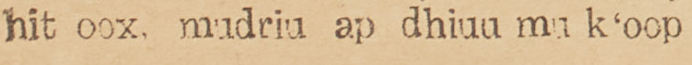hit oox, mudriu ap dhiuu mu k'oop
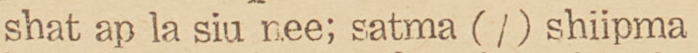shat ap la siu nee; satma (/) shiipma
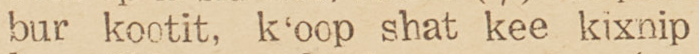bur kootit, k'oop shat kee kixnip
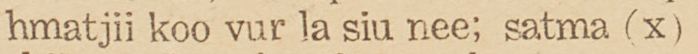hmatjii koo vur la siu nee; satma (x)
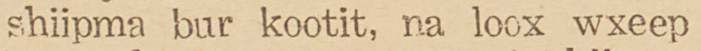shiipma bur kootit, na loox wxeep
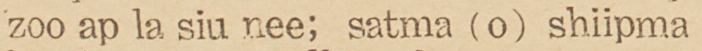zoo ap la siu nee; satma (o) shiipma
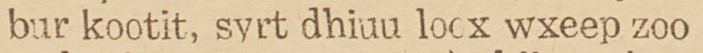bur kootit, syrt dhiuu loox wxeep zoo
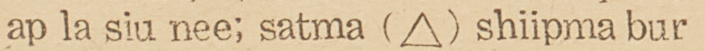ap la siu nee; satma (△) shiipma bur
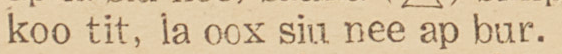koo tit, la oox siu nee ap bur.
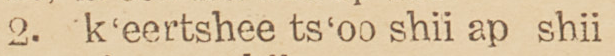2. k'eertshee ts'oo shii ap shii
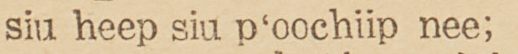siu heep siu p'oochiip nee;
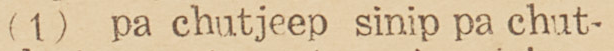(1) pa chutjeep sinip pa chut-
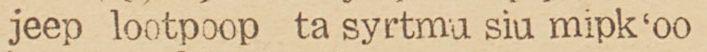jeep lootpoop ta syrtmu siu mipk'oo
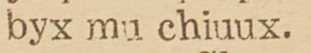byx mu chiuux.
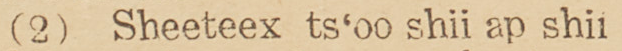(2) Sheeteex ts'oo shii ap shii
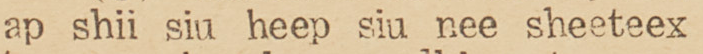ap shii siu heep siu nee sheeteex
